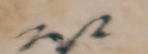༢༩
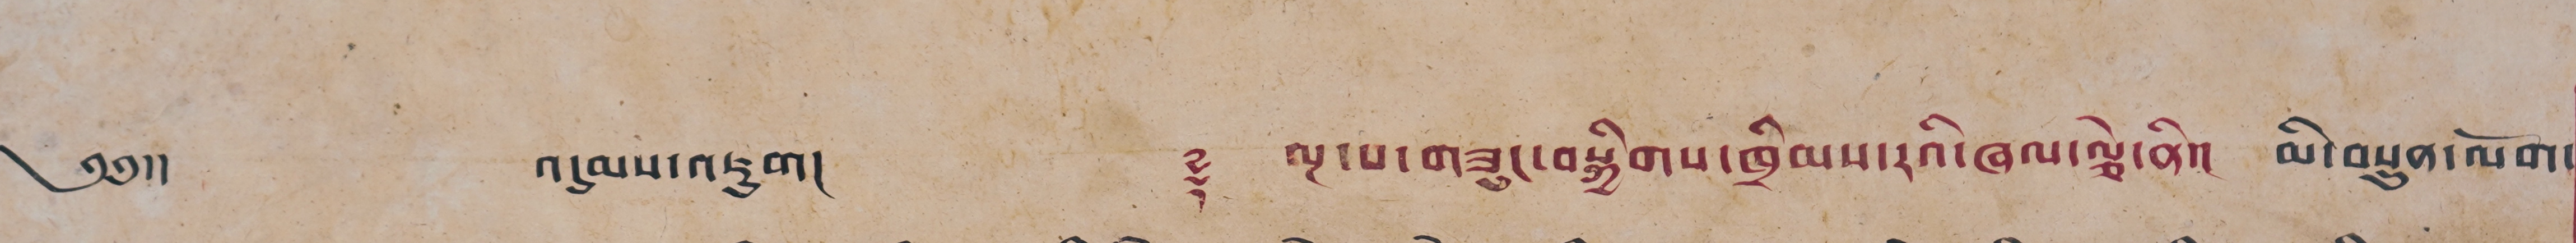༄༅།། འདུམས་འཇུག། ༈ ལྔ་པ་གཟུང་བསྐྱིགས་ཁྲིམས་རའི་ཞལ་ལྕེ་ནི་། མི་བསྲུན་ལོག་
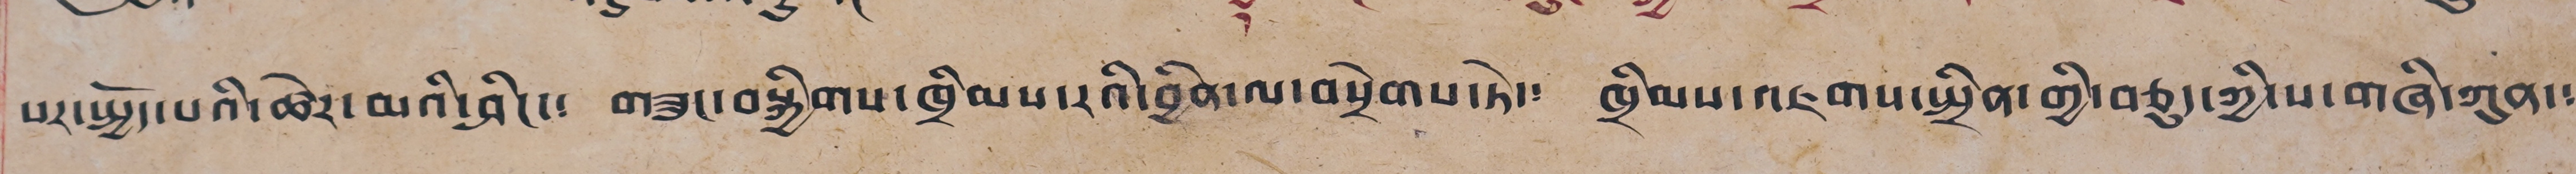པར་སྤྱོད་པའི་ཚེར་མའི་ཤིང་༴ གཟུང་བསྐྱིགས་ཁྲིམས་རའི་བྱིན་ལ་བསྲེགས་ཏེ་༴ ཁྲིམས་འཇགས་སྤྲིན་གྱི་བཅུད་ཀྱི་ས་གཞི་ཀུན་༴
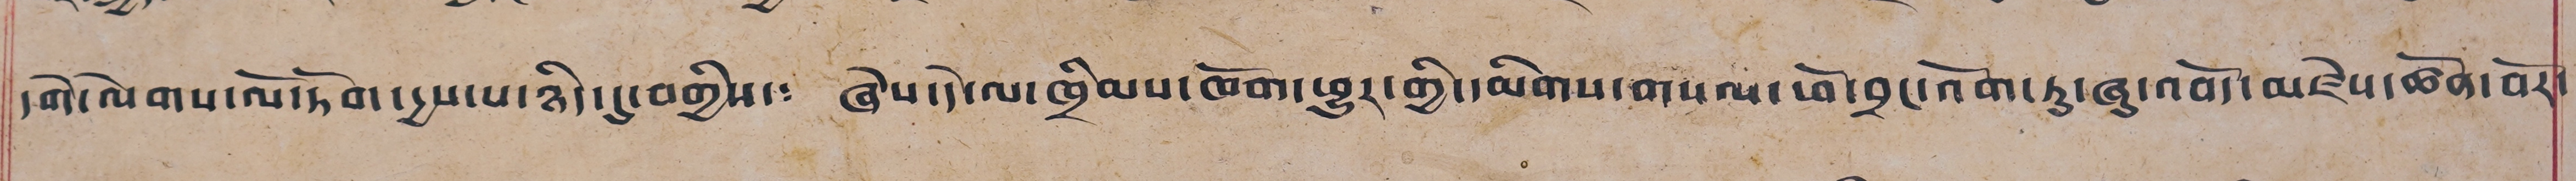དགེ་ལེགས་ལོ་ཏོག་དྱས་པ་ཉིད་དུ་བགྱིས་༴ ཞེས་དེ་ལ་ཁྲིམས་ཁོག་ཕྱུར་གྱི་དམིགས་གསལ་ཕོ་བྲང་འོག་ཏུ་ཞུ་འབོད་མཛེས་ཚོན་བོར་
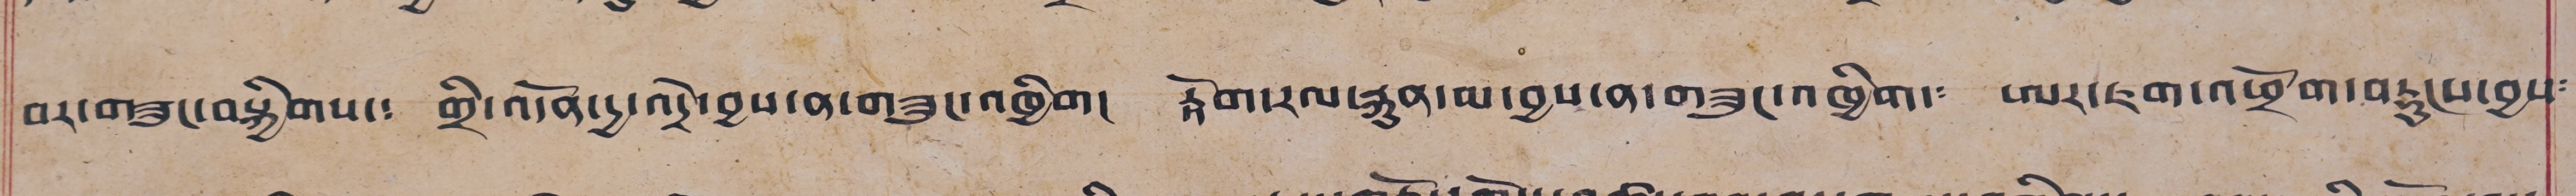བར་གཟུང་བསྐྱིགས་༴ གྲི་འདོན་དྱ་འདྲེ་བྱས་ན་གཟུང་འཁྱིག། རྟོག་རལ་རྐུན་མ་བྱས་ན་གཟུང་འཁྱིག་༴ ཨར་ཇག་འཕྲོག་བརྡུངས་བྱས༴
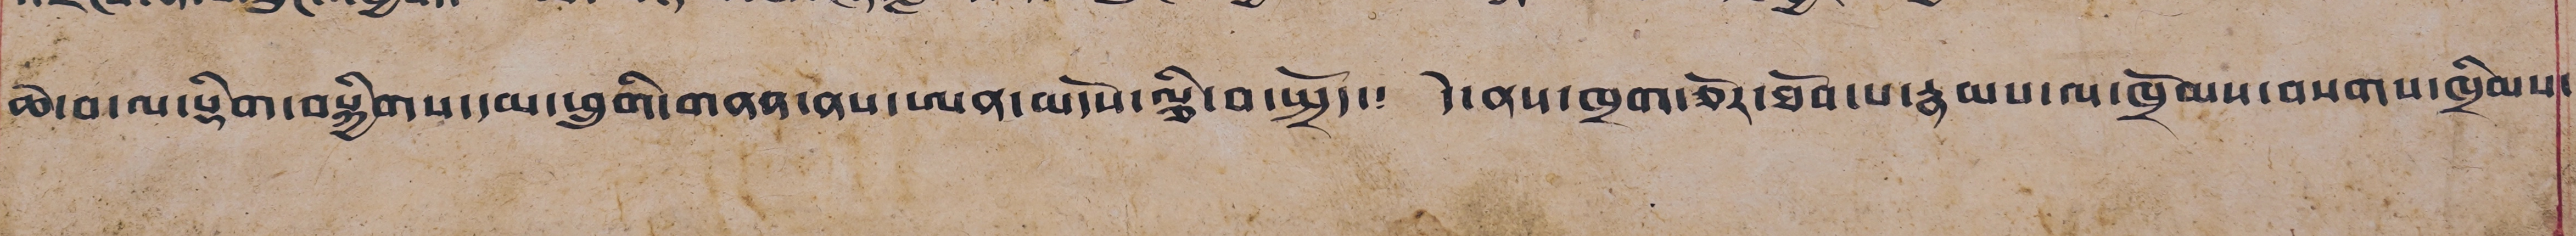ཆེ་བ་ལ་སྡིག་བསྐྱིགས་དམ་ཕྲུགི་གནན་ནས་ཨན་མདོས་ལྕི་བ་སྤྲོད་༴ དེ་ནས་ཁྲག་ཅོར་ཐོབ་པ་རྣམས་ལ་ཁྲོམས་བསགས་ཁྲིམས་
